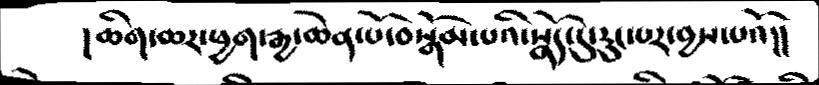།ཆིག་ཆར་ཕྱག་རྒྱ་ཆེན་པོ་བསྒོམ་པའི་སྣོད་དུ་རུང་པར་བྱས་པའོ།།
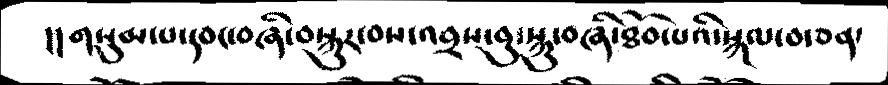།།གསུམ་པ་དབང་བཞི་བསྐུར་བས་འབྲས་བུ་སྐུ་བཞི་ཐོབ་པའི་སྐལ་བ་ཅན་
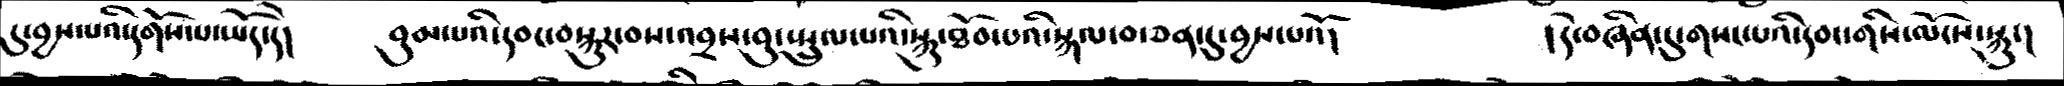དུ་བྱས་པའི་དགོས་པ་ཡོད་དེ།   བུམ་པའི་དབང་བསྐུར་བས་འབྲས་བུ་སྤྲུལ་པའི་སྐུ་ཐོབ་པའི་སྐལ་བ་ཅན་དུ་བྱས་པའོ།  །དེ་བཞིན་དུ་གསང་པའི་དབང་གིས་ལོངས་སྐུ་།
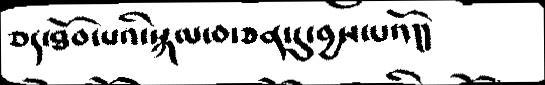ཅད་ཐོབ་པའི་སྐལ་བ་ཅན་དུ་བྱས་པའོ།།
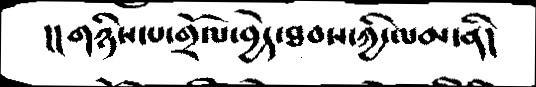།།གཉིས་པ་གྲོལ་བྱེད་ཐབས་ཀྱི་ལམ་ནི།
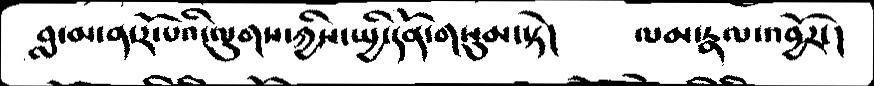བླ་མ་ན་རོ་པའི་ལུགས་ཀྱིས་སྤྱི་དོན་གསུམ་སྟེ།   ལམ་རྣལ་འབྱོར་།
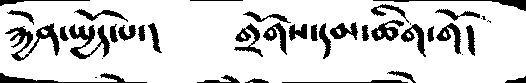རྐྱེན་སྤྱོད་པ་།   གྲོགས་དམ་ཚིག་གོ།
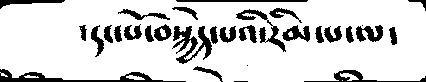།དང་པོ་བསྐྱེད་པའི་རིམ་པ་ལ་
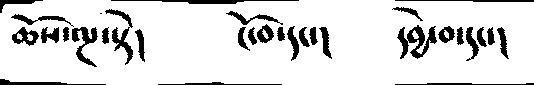ཆོས་ལྔ་སྟེ།        ངོ་བོ་དང་།        དབྱེ་བ་དང་།
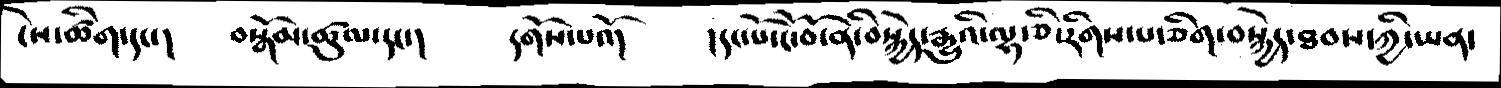ངེས་ཚིག་དང་།   བསྒོམ་ཚུལ་དང་།   དགོས་པའོ།   །དང་པོ་ངོ་བོ་ནི་བསྐྱེད་རྒྱུའི་ལྷ་ཅི་རིགས་པ་ཅིག་བསྐྱེད་ཐབས་ཀྱི་ཡན་
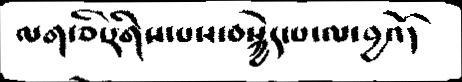ལག་ཅི་རིགས་པས་བསྐྱེད་པ་ལ་བྱའོ།
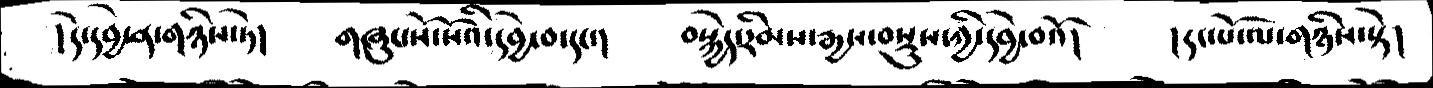།དེ་དབྱེ་ན་གཉིས་ཏེ།   གཞུང་སོ་སོའི་དབྱེ་བ་དང་།   བསྐྱེད་རིམས་རྒྱས་བསྡུས་ཀྱི་དབྱེ་བའོ།   །དང་པོ་ལ་གཉིས་སྟེ།
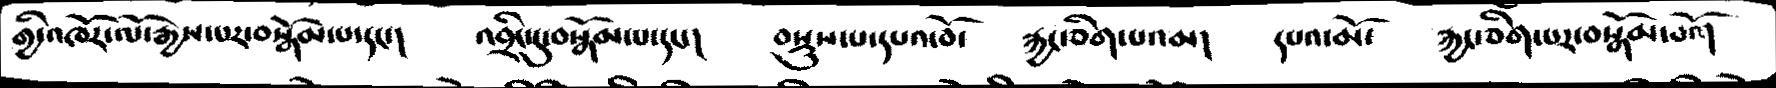གྱི་འཁོར་ལོ་རྒྱས་པར་བསྒོམ་པ་དང་།  འབྲིང་དུ་བསྒོམ་པ་དང་།   བསྡུས་པ་དཔའ་བོ་  རྐྱང་ཅིག་པའམ།   དཔའ་མོ་  རྐྱང་ཅིག་པར་བསྒོམ་པའོ།
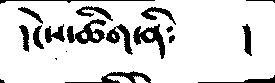།ངེས་ཚིག་ནི༴         །
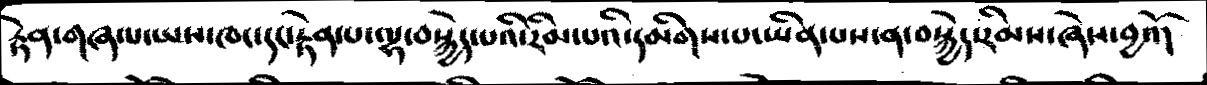རྟེན་གཞལ་ཡས་ཁང་དང་རྟེན་པ་ལྷ་བསྐྱེད་པའི་རིམ་པའི་དམིགས་པ་ཡིན་པས་ན་བསྐྱེད་རིམས་ཞེས་བྱའོ།
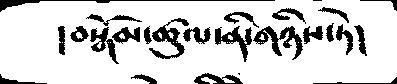།བསྒོམ་ཚུལ་ནི་གཉིས་ཏེ།
